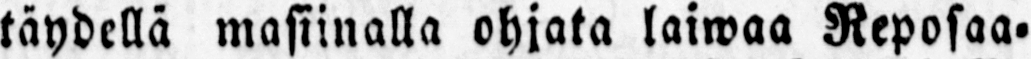täydellä masiinalla ohjata laiwaa Reposaa-
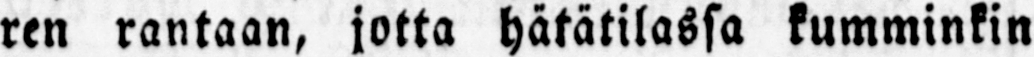ren rantaan, jotta hätätilassa kumminkin
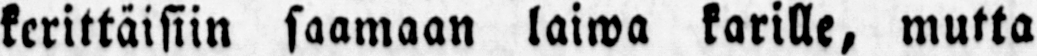kerittäisiin saamaan laiwa karille, mutta
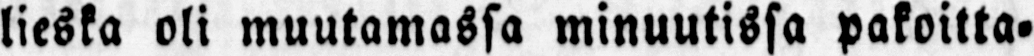lieska oli muutamassa minuutissa pakoitta-
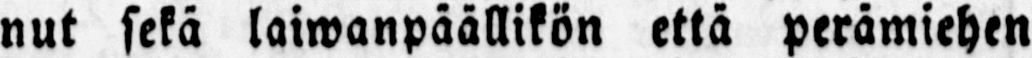nut sekä laiwanpäällikön että perämiehen
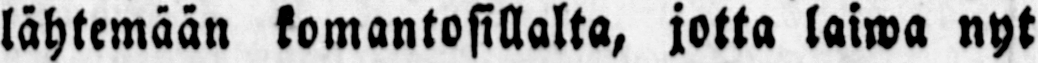lähtemään komantosillalta, jotta laiwa nyt
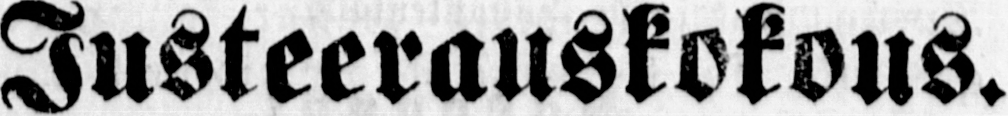Justeerauskokous.
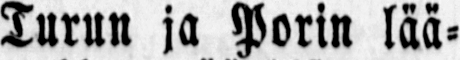Hewoisystäwäinyhteyden Turun ja Porin lää-
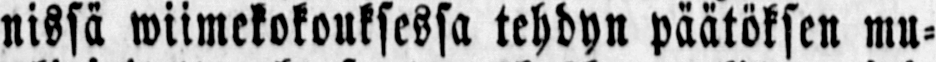nissä wiimekokouksessa tehdyn päätöksen mu-
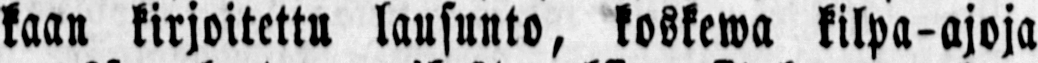kaan kirjoitettu lausunto, koskewa kilpa-ajoja
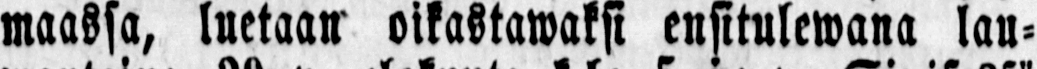maassa, luetaan oikastawaksi ensitulewana lau-
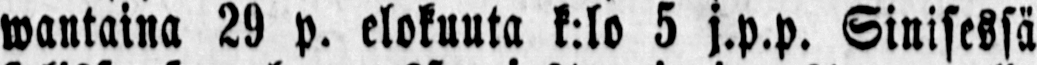wantaina 29 p. elokuuta k:lo 5 t.p.p. Sinisessä
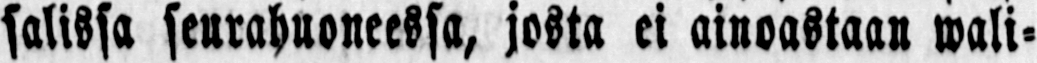salissa seurahuoneessa, josta ei ainoastaan wali-
